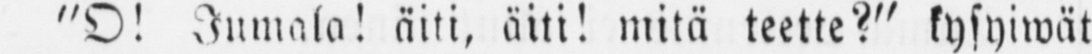” O! Jumala! äiti, äiti! mitä teette? ” kysyiwät
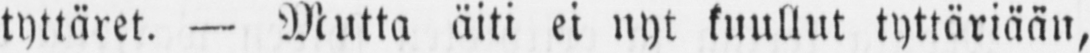tyttäret. — Mutta äiti ei nyt kuullut tyttäriään,
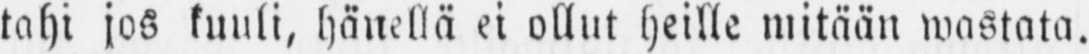tahi jos kuuli, hänellä ei ollut heille mitään wastata.
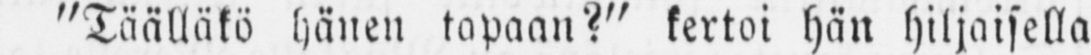”Täälläkö hänen tapaan?” kertoi hän hiljaisella
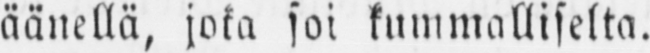äänellä, joka soi kummalliselta.
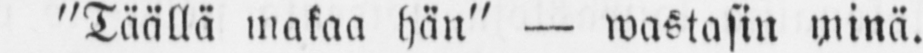”Täällä makaa hän” — wastasin minä.
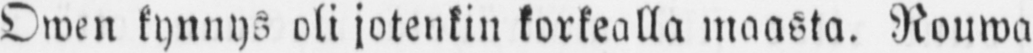Owen kynnys oli jotenkin korkealla maasta. Rouwa
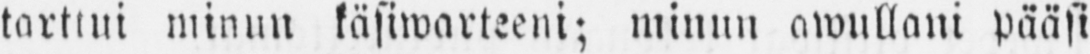tarttui minun käsiwarteeni; minun awullani pääsi
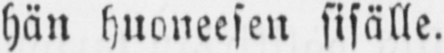hän huoneesen sisälle.
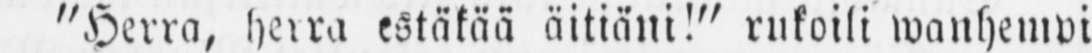”Herra, hera estäkää äitiäni!” rukoili wanhempi
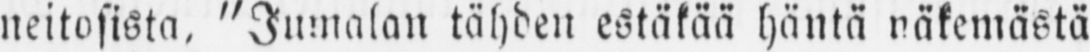neitosista, ”tähden estäkää häntä näkemästä
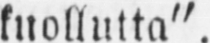kuollutta”.
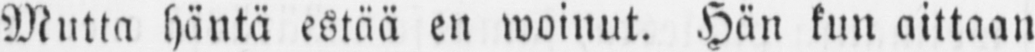Mutta häntä estää en woinut. Hän kun aittaan
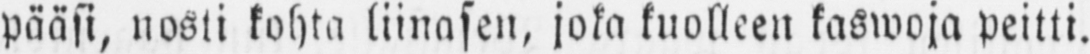pääsi, nosti kohta liinasen, joka kuolleen kaswoja peitti.
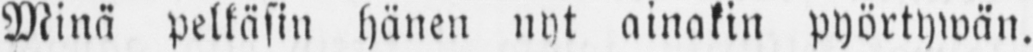Minä pelkäsin hänen nyt ainakin pyörtywän.
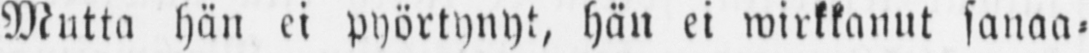Mutta hän ei pyörtynyt, hän ei wirkkanut sanaa-
